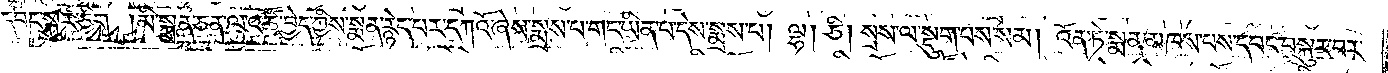དབང་སྐུར་ཅིག །མི་སྐྲན་ཅན་ལ་འཚོ་བྱེད་ཀྱིས་སྨན་རྙེད་པར་དཀའོ་ཞེས་སྨྲས་པ་གང་ཡིན་པ་དེས་སྨྲས་པ། ལྷ། ཅི། སྲས་ལ་སྡུག་པས་སམ། འོན་ཏེ་སྨན་མཁས་པས་དབང་བསྐུར་བར་
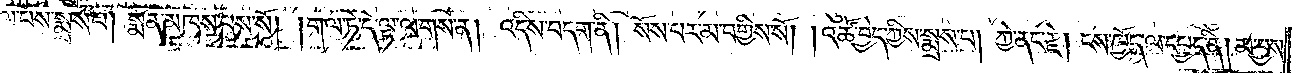མཛད། རྒྱལ་པོས་སྨྲས་པ། སྨན་མཁས་པས་སོ། །གལ་ཏེ་དེ་ལྟ་ལགས་ན། འདིས་བདག་ནི། སོས་པར་མ་བགྱིས་སོ། །འཚོ་བྱེད་ཀྱིས་སྨྲས་པ། ཀྱེ་ནང་རྗེ། ངས་ཁྱོད་ལ་དཔྱད་ནི། མ་བྱས་
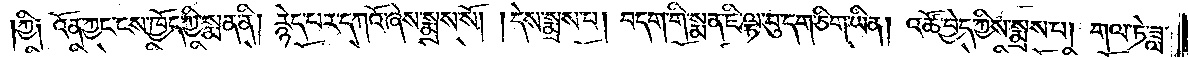།ཀྱི༑ འོན་ཀྱང་ངས་ཁྱོད་ཀྱི་སྨན་ནི། རྙེད་པར་དཀའོ་ཞེས་སྨྲས་སོ། །དེས་སྨྲས་པ། བདག་གི་སྨན་ཇི་ལྟ་བུ་དག་ཅིག་ཡིན། འཚོ་བྱེད་ཀྱིས་སྨྲས་པ། གལ་ཏེ་ཟླ་
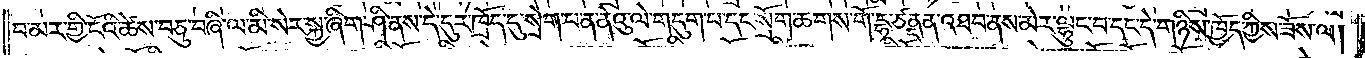བ་མར་གྱི་ངོའི་ཚེས་བཅུ་བཞི་ལ་མི་སེར་སྐྱ་ཞིག་ཤི་ནས་དེ་དུར་ཁྲོད་དུ་སྲེག་པ་ན་ནེའུ་ལེ་གདུག་པ་དང་སྲོག་ཆགས་གོ་དྷ་ཙནྡན་ན་འཐབ་ནས་མེར་ལྷུང་བ་དང་དེ་གཉིས་ཁྱོད་ཀྱིས་ཟོས་ལ།
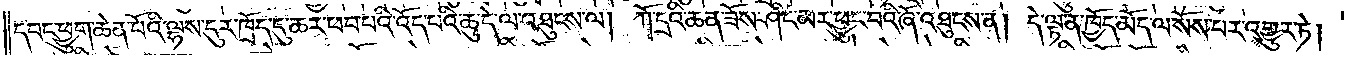དབང་ཕྱུག་ཆེན་པོའི་ལྷས་དུར་ཁྲོད་དུ་ཆར་ཕབ་པའི་འོད་པའི་ཆུ་དེ་ལ་འཐུངས་ལ། ཀོ་དྲའི་ཆན་ཟོས་ཤིང་མར་ཕྱུང་བའི་ཞོ་འཐུངས་ན། དེ་ལྟ་ན་ཁྱོད་མོད་ལ་སོས་པར་འགྱུར་ཏེ།
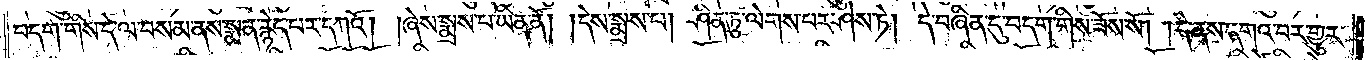བདག་གིས་དེ་ལ་བསམ་ནས་སྨན་རྙེད་པར་དཀའོ། །ཞེས་སྨྲས་པ་ཡིན་ནོ། །དེས་སྨྲས་པ། ཤིན་ཏུ་ལེགས་པར་ཤེས་ཏེ། དེ་བཞིན་དུ་བདག་གིས་ཟོས་སོ། །དེ་ནས་དགའ་བར་གྱུར་
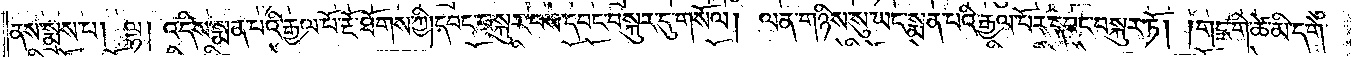ནས་སྨྲས་པ། ལྷ། འདིས་སྨན་པའི་རྒྱལ་པོ་རྔོ་ཐོགས་ཀྱི། དབང་བསྐུར་བས་དབང་བསྐུར་དུ་གསོལ། ལན་གཉིས་སུ་ཡང་སྨན་པའི་རྒྱལ་པོར་དབང་བསྐུར་ཏོ། །གང་གི་ཚེ་མི་དགེ་
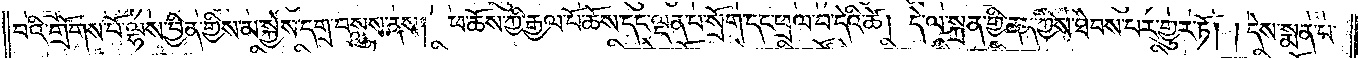བའི་གྲོགས་པོ་ལྷས་བྱིན་གྱིས་མ་སྐྱེས་དགྲ་བསླུས་ནས། ཕ་ཆོས་ཀྱི་རྒྱལ་པོ་ཆོས་དང་ལྡན་པ་སྲོག་དང་ཕྲལ་བ་དེའི་ཚེ། དེ་ལ་སྐྲན་གྱི་ནད་ཀྱིས་ཐེབས་པར་གྱུར་ཏོ། །དེས་སྨན་པ་
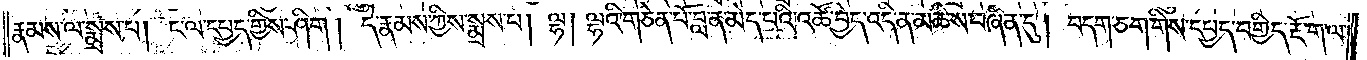རྣམས་ལ་སྨྲས་པ། ང་ལ་དཔྱད་གྱིས་ཤིག །དེ་རྣམས་ཀྱིས་སྨྲས་པ། ལྷ། ལྷའི་གཅེན་པོ་བླ་ན་མེད་པའི་འཚོ་བྱེད་འདི་ན་མཆིས་བཞིན་དུ། བདག་ཅག་གིས་དཔྱད་བགྱིད་རྔོ་ག་ལ་
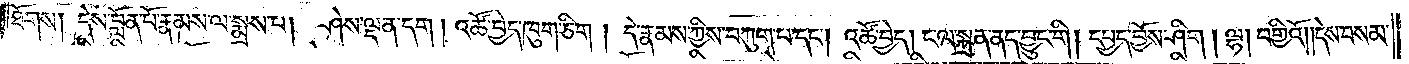ཐོགས། དེས་བློན་པོ་རྣམས་ལ་སྨྲས་པ། ཤེས་ལྡན་དག། འཚོ་བྱེད་ཁུག་ཅིག །དེ་རྣམས་ཀྱིས་བཀུག་པ་དང༌། འཚོ་བྱེད། ང་ལ་སྐྲན་ནད་བྱུང་གི །དཔྱད་བྱོས་ཤིག །ལྷ། བགྱིའོ། །དེས་བསམ་
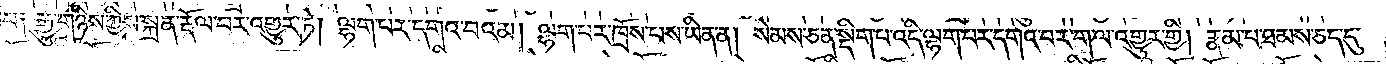པ༑ རྒྱུ་གཉིས་ཀྱིས་སྐྲན་རྡོལ་བར་འགྱུར་ཏེ། ལྷག་པར་དགའ་བའམ། ལྷག་པར་ཁྲོས་པས་ཡིན་ན། སེམས་ཅན་སྡིག་པ་འདི་ལྷག་པར་དགའ་བར་ག་ལ་འགྱུར་གྱི། རྣམ་པ་ཐམས་ཅད་དུ་
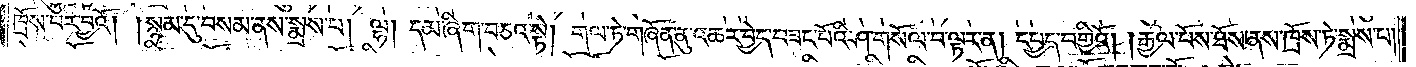ཁྲོས་པར་བྱའོ། །སྙམ་དུ་བསམ་ནས་སྨྲས་པ། ལྷ། དམ་ཞིག་བཅའ་སྟེ། གལ་ཏེ་གཞོན་ནུ་འཆར་བྱེད་བཟང་པོའི་ཤ་གསོལ་བ་ལྟར་ན། དཔྱད་བགྱིའོ། །རྒྱལ་པོས་ཐོས་ནས་ཁྲོས་ཏེ་སྨྲས་པ།
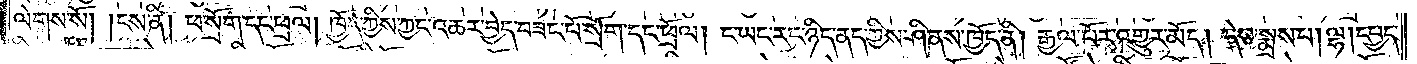ལེགས་སོ། །ངས་ནི། ཕ་སྲོག་དང་ཕྲལ། ཁྱོད་ཀྱིས་ཀྱང་འཆར་བྱེད་བཟང་པོ་སྲོག་དང་ཕྲོལ། ང་ཡང་རང་ཉིད་ནད་ཀྱིས་ཤི་ནས་ཁྱོད་ནི། རྒྱལ་པོར་འགྱུར་མོད། དེས་སྨྲས་པ། ལྷ། དཔྱད་
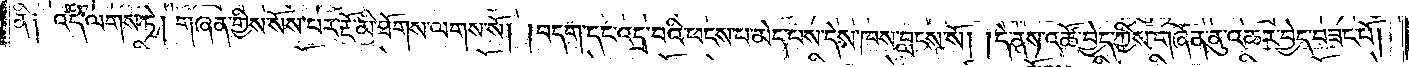ནི༑ འདི་ལགས་ཏེ། གཞན་གྱིས་སོས་པར་རྔོ་མི་ཐོགས་ལགས་སོ། །བདག་དང་འདྲ་བའི་ཕངས་པ་མེད་པས་དེས་ཁས་བླངས་སོ། །དེ་ནས་འཚོ་བྱེད་ཀྱིས་གཞོན་ནུ་འཆར་བྱེད་བཟང་པོ།
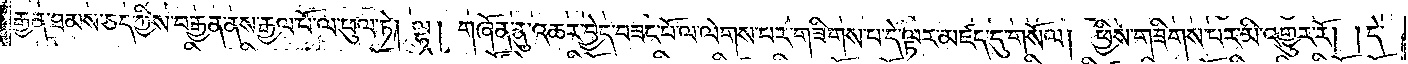རྒྱན་ཐམས་ཅད་ཀྱིས་བརྒྱན་ནས་རྒྱལ་པོ་ལ་ཕུལ་ཏེ། ལྷ། གཞོན་ནུ་འཆར་བྱེད་བཟང་པོ་ལ་ལེགས་པར་གཟིགས་པ་དེ་ལྟར་མཛད་དུ་གསོལ། ཕྱིས་གཟིགས་པར་མི་འགྱུར་རོ། །དེ་
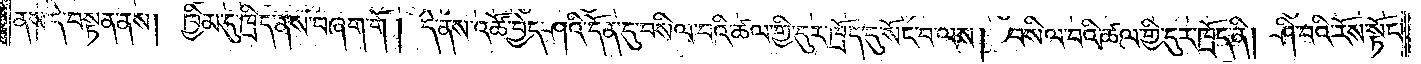ནས་དེ་བསྟན་ནས། ཁྱིམ་དུ་ཁྲིད་ནས་བཞག་གོ །དེ་ནས་འཚོ་བྱེད་ཤའི་དོན་དུ་བསིལ་བའི་ཚལ་གྱི་དུར་ཁྲོད་དུ་སོང་བ་ལས། བསིལ་བའི་ཚལ་གྱི་དུར་ཁྲོད་ནི། ཤི་བའི་རོས་སྟོང་
